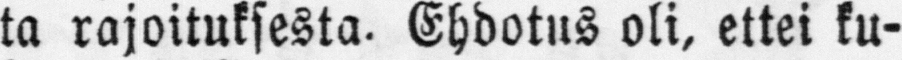ta rajoituksesta. Ehdotus oli, ettei ku-
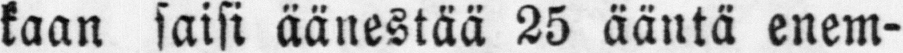kaan saisi äänestää 25 ääntä enem-
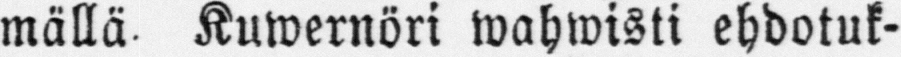mällä. Kuwernöri wahwisti ehdotuk-
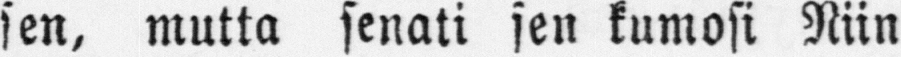sen, mutta senati sen kumosi Niin
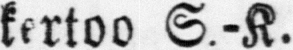kertoo S.-K.
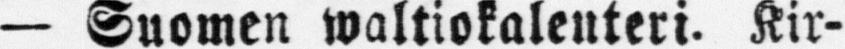— Suomen waltiokalenteri. Kir-
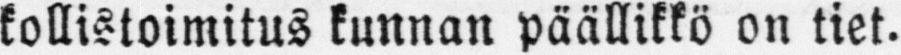kollistoimitus kunnan päällikkö on tiet.
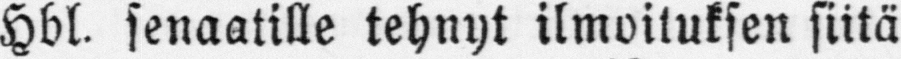Hbl. senaatille tehnyt ilmoituksen siitä
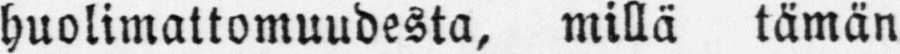huolimattomuudesta, millä tämän
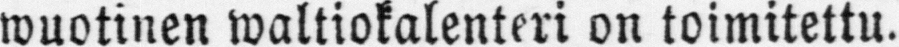wuotinen waltiokalenteri on toimitettu.
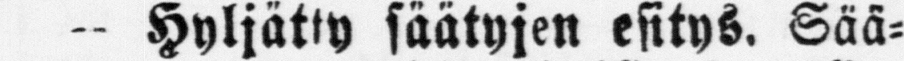— Hyljätty säätyjen esitys. Sää-
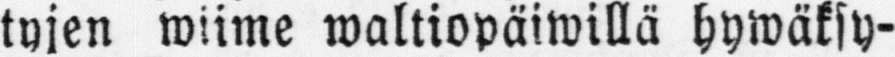tyjen wiime waltiopäiwillä hywäksy-
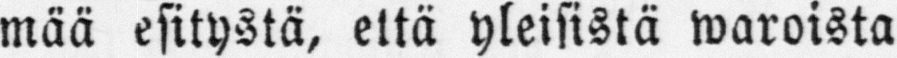mää esitystä, että yleisistä waroista
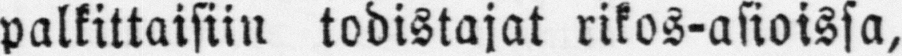palkittaisiin todistajat rikos-asioissa,
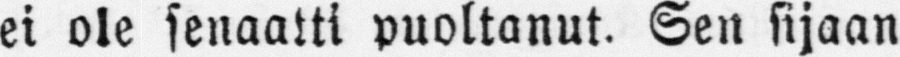ei ole senaatti puoltanut. Sen sijaan
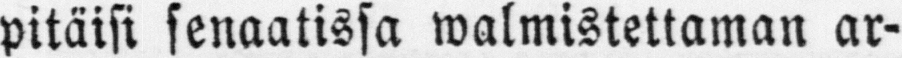pitäisi senaatissa walmistettaman ar-
